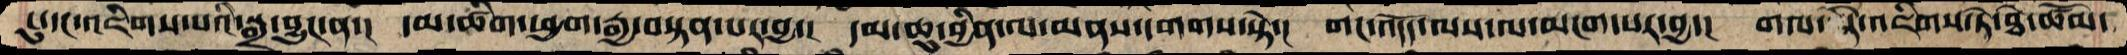ངུ་དང་འཇིགས་པའི་སྒྲ་བྱུང་ན་།  དམ་ཚིག་ཕྱག་རྒྱ་བསྟན་པར་བྱ་།  དམ་ཆུ་བྱིན་ལ་མནས་དགགས་སྟེ་།  གང་འདོད་ལས་ལ་མངག་པར་བྱ་།  གལ་ཏེའཇིགས་ཏེ་ཐེ་ཚོམ་
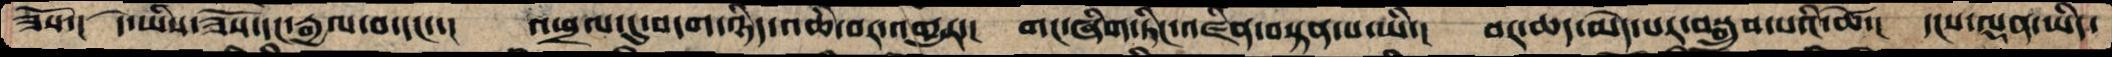ཟོས་།  དེ་ཡིས་ཟོས་དང་རྒྱལ་བ་དང་་།  འཕྲལ་དུ་བདག་ཉིད་འཆི་བར་འགྱུར་།  གང་ཞིག་ཏིང་འཛིན་བསྟན་པ་ཡི་།  བར་ཆད་མེད་པར་བསྒྲུབ་པའི་ཚེ་།  དངས་ལྡན་ཡིད་
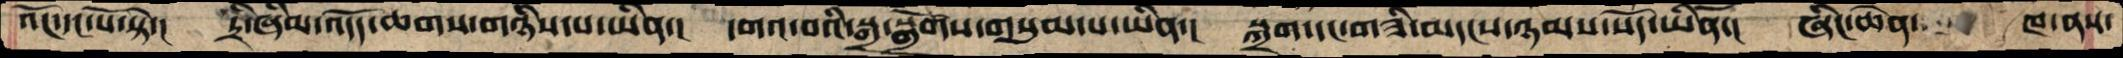འོང་དང་པོ་སྟེ་།  དྲི་ཞིམ་འདོད་ཆགས་གཉིས་པ་ཡིན་།  དགའ་བའི་སྒྲ་སྒྲོགས་གསུམ་པ་ཡིན་།  སྐྲག་དང་གཟི་མདངས་ཉམས་སོད་ཡིན་།  ཞིང་ཆེན་    ཁ་ནས་
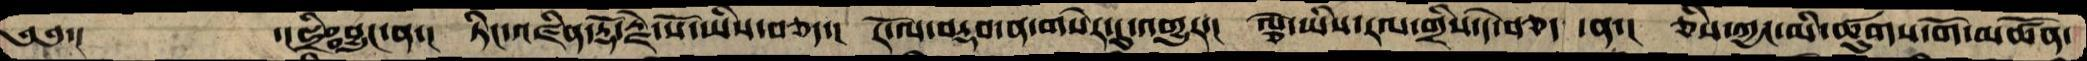༄༅་།            ་།ཧྲིཿབྱུང་ན་།  ཏིང་འཛིན་རྡོ་རྗེ་སོ་ཡིས་བཅད་།  རོ་ལ་བརྡབ་ན་གསེར་དུ་འགྱུར་།  ལྕེ་ཡིས་རལ་གྲིས་དེ་བཅད ་ན་།  ཅིས་ཀྱང་མི་ཚུགས་གོ་མཚོན་
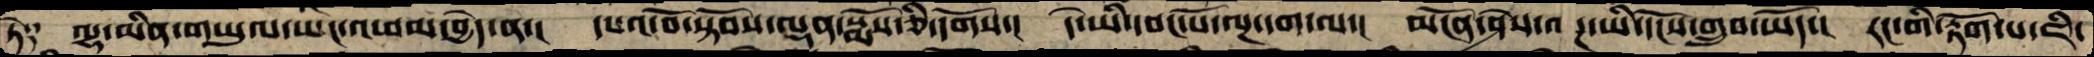ཏེ༑ ལྷ་མིན་གཡུལ་ཡང་འཕམ་བྱེད་ན་།  དཔའ་བོ་སྟོབས་ལྡན་སྨོས་ཅི་དགོས་།  དེ་ཡི་དབང་པོ་ལྔ་དག་ལ་།  མངོན་ཤེས་ལྔ་ཡི་དངོས་གྲུབ་ཡོད་།  རང་གི་རྟོག་པ་ཇི་
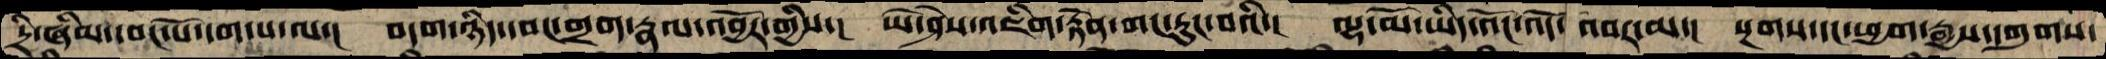དྲི་ཞིམ་དབང་པོ་དག་པ་ལ་།  བདག་ཉིད་དབང་གྲག་རྣལ་འབྱོར་གྱིས་།  ཡེ་ཤེས་འཇིག་རྟེན་གང་རུང་བའི་།  ལྷ་མོ་ཡིད་འོང་འོད་ འབར་མ་།  སྔགས་དང་ཕྱག་རྒྱས་དགུགས་
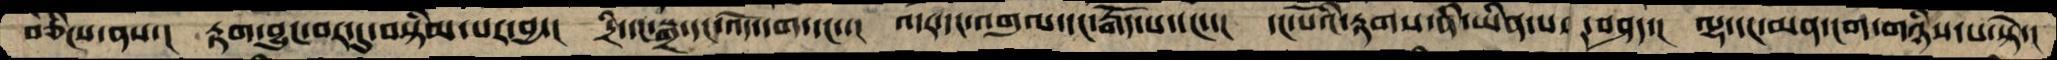བཅིངས་ནས་།  རྟག་བྱུང་བར་དུ་བསྟིམ་པར་བྱ་།  དྲི་དང་སྒྲ་དང་འདོད་དག་དང་་།  འདར་དང་འགུལ་དང་རྒོད་པ་དང་་།  དང་པོའི་རྟགས་ནི་ཡིན་པར་བཤད་།   ལྷ་དང་མན་ངག་གཉིས་པ་སྟེ་།
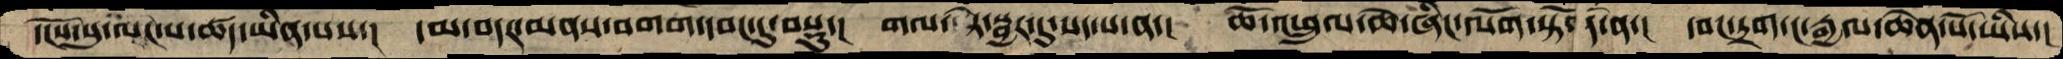དངོས་སུ་ལང་པ་ཚད་ཡིན་པས་། དམ་བདར་མནས་བགག་དབང་དུ་བསྡུ་། གལ་ཏེ་སྦྱར་དུ་སད་པ་ན་། ཆོ་འཕྲུལ་ཆེ་ཞིང་ལོག་སྟོན་ན་། དབང་དྲག་ང་རྒྱལ་ཆེན་པོ་ཡིས་།
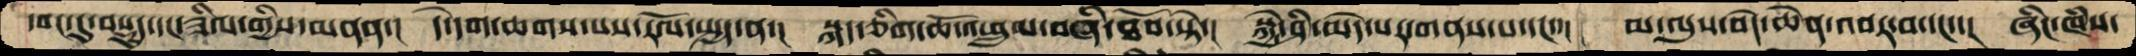དབང་དུ་བསྡུད་དང་ཟིལ་གྱིས་མནན་།  དེ་དག་ཆགས་པས་རོལ་སྤྱད་ན་།  སྐད་ཅིག་ཆོ་འཕྲུལ་བཞི་ཐོབ་སྟེ་།  སྐྱེ་ཤི་མེད་པར་གནས་པ་དང་་།  མ་ལུས་བདེ་ཆེན་འབར་བ་དང་་།  ཞིང་ཁཾས་
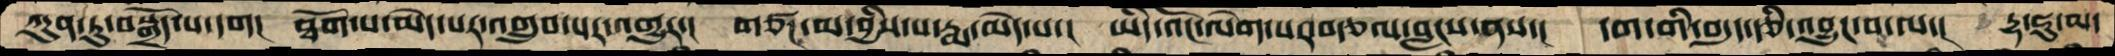ཀུན་ཏུ་བསྒྲོད་པ་དག།  ཐོག་པ་མེད་པར་འགྲུབ་པར་འགྱུར་།  གཙང་མ་བྱིས་པ་རྨ་མེད་པ་།  ཡིད་འོང་ལེག་པར་བརྩལ་བླངས་ནས་།  དག་གི་བདུད་རྩི་འབྱུང་བ་ལ་།  དྷ་ཧུ་མ་
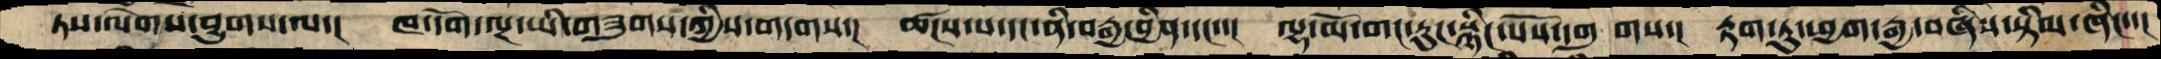ཏས་ལེགས་བྱུགས་ལ་།  ཁ་དོག་ལྔ་ཡི་གཟུགས་ཀྱིས་གདགས་།  ཚངས་པ་དང་ནི་བརྒྱ་བྱིན་དང་་།  ལྷ་མོ་གང་རུང་སྙིང་པོས་དགུ གས་།  རྟག་ཏུ་ཕྱག་རྒྱ་བཞིས་སྟིམ་ཞིང་་།
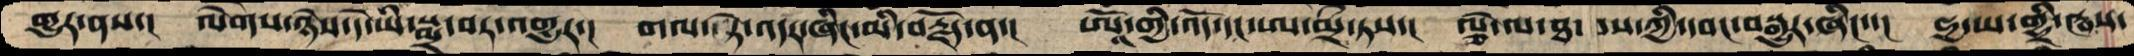གྱུར་ནས་།  ལེགས་ཉེས་དེ་ཡི་སྨྲ་བར་འགྱུར་།  གལ་ཏེ་འདར་ཞིང་མི་བརྗོད་ན་།  ཨཱོཾ་གྱི་འོད་དང་ཨ་མྲྀ་ཏས་།  ལྕེ་ལ་ཐ་ བས་ཀྱི་དབང་བསྐུར་ཞིང་་།  ཧྱ་ཡ་གྷྲི་ཝས་
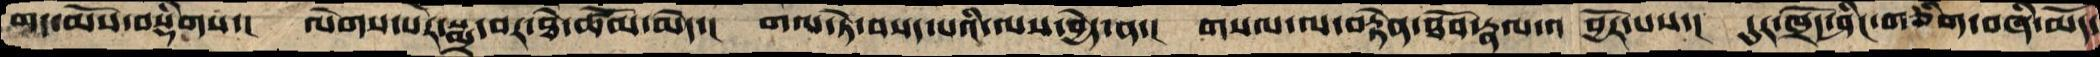གད་མོས་བསྡིགས་།  ལེགས་པར་སྨྲ་བར་ཐེ་ཚོམ་མེད་།  གལ་ཏེ་བསད་པའི་ལས་བྱེད་ན་།  གསལ་ལ་བརྟེན་ཐོབ་རྣལ་འ བྱོར་པས་།  དུར་ཁྲོད་ཤིང་གཅིག་བཞི་མདོ་
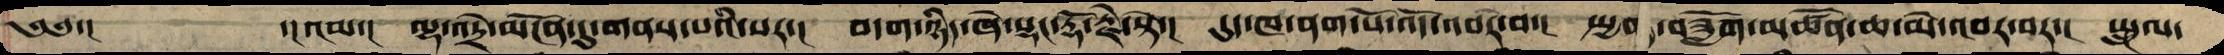༄༅་།       ་།འམ་།  ལྷ་འདྲེ་མངོན་དུ་གནས་པའི་སར་།  བདག་ཉིད་ཞེ་སྡང་རྡོ་རྗེ་སྟེ་།  དུད་ཁ་ནག་པོ་འདོ་འབར་བ་།  སྤྱན་བཟློག་མཚོན་ཆ་མེ་འབར་བར་།  སྤྲུལ་
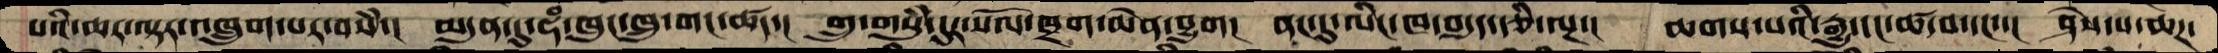པའི་ཆར་ལྟར་འཁྲུག་པར་བསཾ་།  མདུན་དུ་ཧཾ་ཁུང་ཁྲུ་གང་ཚད་།  གྲུ་གསུཾ་དུར་སོལ་ཁྲག་མེན་བྱུག་།  ནང་དུ་ལིང་ཁ་བདུད་རྩི་ལྔ་།  ཆགས་པའི་རྒྱུ་དང་ཚ་བ་དང་།  ཤེས་པ་ཆཌ་
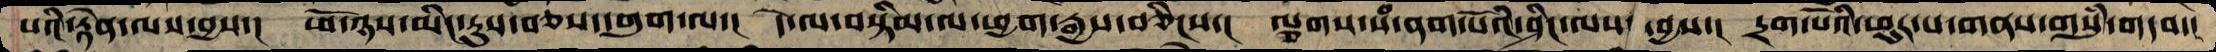པའི་རྟེན་ལས་བྱས།  ཕོ་ཉས་མིང་རུས་བཅས་དགུག་ལ་། དེ་ལ་བསྟིམ་ལ་ཕྱག་རྒྱས་བཅིངས་།  ལྕགས་སཾ་ནག་པོའི་ཤིང་ལས་བྱས་།  དྲག་པོའི་ཕུར་པ་གནས་གསུཾ་གདབ་།
